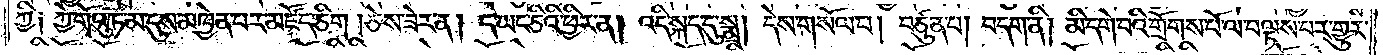ཀྱི༑ ཀྱེ་གོའུ་ཏ་མ་དུས་མཁྱེན་པར་མཛོད་ཅིག །ཅེས་ཟེར་ན། ད་ཡང་ཅིའི་ཕྱིར་ན། འདི་སྐད་དུ་སྨྲ། དེས་གསོལ་པ། བཙུན་པ། བདག་ནི། མི་དགེ་བའི་གྲོགས་པོ་ལ་བལྟས་པར་གྱུར་
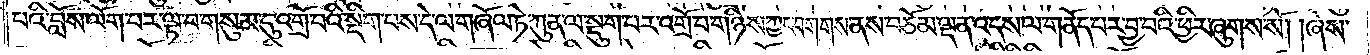པའི་བློས་ལོག་པར་ལྟ་བ་གསུམ་དུ་འགྲོ་བའི་སྡིག་པས་དེ་ལ་གཞོལ་ཏེ་ཀུན་ལ་སྡུག་པར་འགྲོ་བ་གཉིས་ཀྱང་བགགས་ནས་བཅོམ་ལྡན་འདས་ལ་གནོད་པར་བྱ་བའི་ཕྱིར་ཞུགས་སོ། །ཞེས་
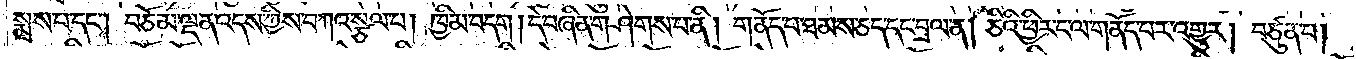སྨྲས་པ་དང༌། བཅོམ་ལྡན་འདས་ཀྱིས་བཀའ་སྩལ་པ། ཁྱིམ་བདག། དེ་བཞིན་གཤེགས་པ་ནི། གནོད་པ་ཐམས་ཅད་དང་བྲལ་ན། ཅིའི་ཕྱིར་ང་ལ་གནོད་པར་འགྱུར། བཙུན་པ།
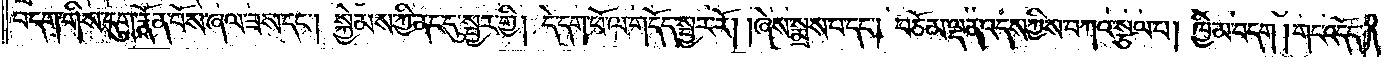བདག་གིས་དུག་རྣོན་པོས་ཞལ་ཟས་དང༌། སྐྱེམས་ཀྱི་ནང་དུ་སྦྱར་གྱི། དེ་དག་ཕོ་ལ་གདོད་སྦྱར་རོ། །ཞེས་སྨྲས་པ་དང༌། བཅོམ་ལྡན་འདས་ཀྱིས་བཀའ་སྩལ་པ། ཁྱིམ་བདག །གང་འདོད་
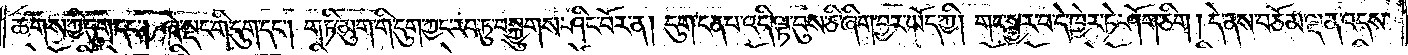ཆགས་ཀྱི་དུག་དང༌། ཞེ་སྡང་གི་དུག་དང༌། གཏི་མུག་གི་དུག་ཀྱང་རབ་ཏུ་བསྐྱུགས་ཤིང་བོར་ན། དུག་ངན་པ་འདི་ལྟ་བུས་ཅི་ཞིག་བྱར་ཡོད་ཀྱི། གང་སྦྱར་བ་དེ་ཁྱེར་ཏེ་ཤོག་ཅིག །དེ་ནས་བཅོམ་ལྡན་འདས་
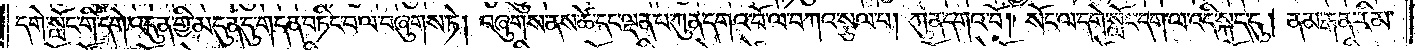དགེ་སློང་གི་དགེ་འདུན་གྱི་མདུན་དུ་གདན་བཏིང་བ་ལ་བཞུགས་ཏེ། བཞུགས་ནས་ཚེ་དང་ལྡན་པ་ཀུན་དགའ་བོ་ལ་བཀའ་སྩལ་པ། ཀུན་དགའ་བོ། སོང་ལ་དགེ་སློང་དག་ལ་འདི་སྐད་དུ། ནམ་རྒན་རིམ་
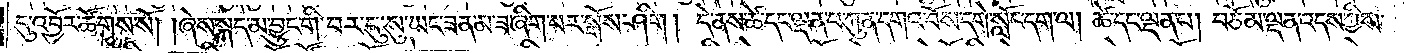དུ་འབྱོར་ཚོགས་སོ། །ཞེས་སྐད་མ་བྱུང་གི་བར་དུ་སུ་ཡང་ཟན་མ་ཟ་ཞིག་པར་སྒོས་ཤིག །དེ་ནས་ཚེ་དང་ལྡན་པ་ཀུན་དགའ་བོས་དགེ་སློང་དག་ལ། ཚེ་དང་ལྡན་པ། བཅོམ་ལྡན་འདས་ཀྱིས་
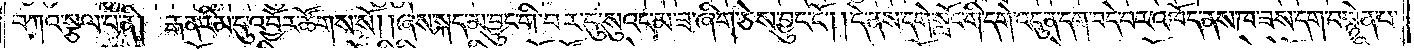བཀའ་སྩལ་པ་ནི། རྒན་རིམ་དུ་འབྱོར་ཚོགས་སོ། །ཞེས་སྐད་མ་བྱུང་གི་བར་དུ་སུའང་མ་ཟ་ཞིག་ཅེས་བྱུང་ངོ༌། །དེ་ནས་དགེ་སློང་གི་དགེ་འདུན་དག་བདེ་བར་འཁོད་ནས་ཁ་ཟས་དག་བསྙེན་པ་
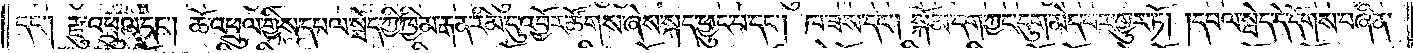དང༌། རྫུ་འཕྲུལ་དང༌། ཆོ་འཕྲུལ་གྱིས་དཔལ་སྦེད་ཀྱི་ཁྱིམ་རྒན་རིམ་དུ་འབྱོར་ཚོགས་ཞེས་སྐད་ཕྱུང་པ་དང༌། ཁ་ཟས་དང༌། སྐོམ་དག་ཀྱང་དུག་མེད་པར་གྱུར་ཏོ། །དཔལ་སྦེད་དེ་དོགས་བཞིན་
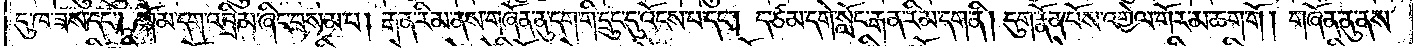དུ་ཁ་ཟས་དང༌། སྐོམ་དག་འབྲིམ་ཞིང་བསམ་པ། རྒན་རིམ་ནས་གཞོན་ནུ་དག་གི་དྲུང་དུ་འོངས་པ་དང༌། ད་ཙམ་དགེ་སློང་རྒན་རིམ་དག་ནི། དུག་རྣོན་པོས་འགྱེལ་གོར་མ་ཆག་གོ། གཞོན་ནུ་ནས་
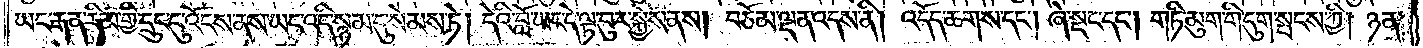ཡང་རྒན་རིམ་གྱི་དྲུང་དུ་འོངས་ནས་ཡང་འདི་སྙམ་དུ་སེམས་ཏེ། དེའི་བློ་ཡང་དེ་ལྟ་བུར་སྐྱེས་ནས། བཅོམ་ལྡན་འདས་ནི། འདོད་ཆགས་དང༌། ཞེ་སྡང་དང༌། གཏི་མུག་གི་དུག་སྤངས་ཀྱི། ཉན་
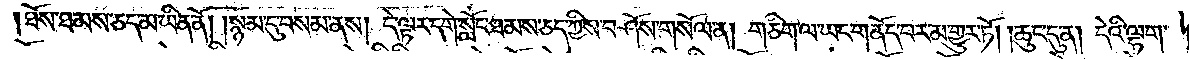ཐོས་ཐམས་ཅད་མ་ཡིན་ནོ། །སྙམ་དུ་བསམ་ནས། དེ་ལྟར་དགེ་སློང་ཐམས་ཅད་ཀྱིས་བཤོས་གསོལ་ན། གཅིག་ལ་ཡང་གནོད་པར་མ་གྱུར་ཏོ། །ཆུང་དུ་ན། དེའི་ལྷག་
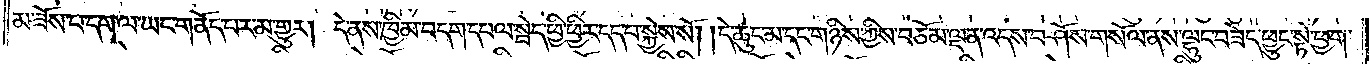མ་ཟོས་པ་དག་ལ་ཡང་གནོད་པར་མ་གྱུར། དེ་ནས་ཁྱིམ་བདག་དཔལ་སྦེད་ཕྱི་ཕྱིར་དད་པ་སྐྱེས་སོ། །དེ་ཆུང་མ་དང་གཉིས་ཀྱིས་བཅོམ་ལྡན་འདས་བཤོས་གསོལ་ནས་ལྷུང་བཟེད་ཕྱུང་སྟེ་ཕྱག་
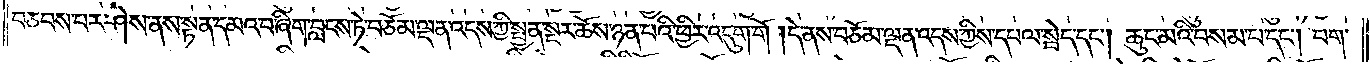བཅབས་པར་ཤེས་ནས་སྟན་དམའ་བ་ཞིག་བླངས་ཏེ་བཅོམ་ལྡན་འདས་ཀྱི་སྤྱན་སྔར་ཆོས་ཉན་པའི་ཕྱིར་འདུག་གོ། དེ་ནས་བཅོམ་ལྡན་འདས་ཀྱིས་དཔལ་སྦེད་དང༌། ཆུང་མའི་བསམ་པ་དང༌། བག་
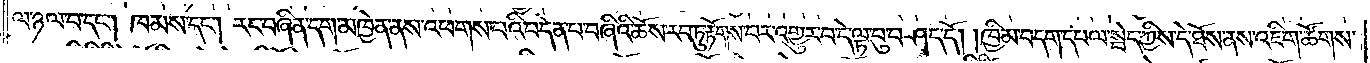ལ་ཉལ་བ་དང༌། ཁམས་དང༌། རང་བཞིན་དག་མཁྱེན་ནས་འཕགས་པའི་བདེན་པ་བཞིའི་ཆོས་རབ་ཏུ་རྟོགས་པར་འགྱུར་བ་དེ་ལྟ་བུ་བཤད་དོ། །ཁྱིམ་བདག་དཔལ་སྦེད་ཀྱིས་དེ་ཐོས་ནས་འཇིག་ཚོགས་
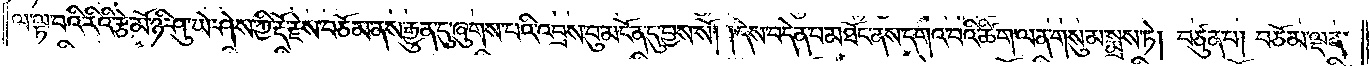ལ་ལྟ་བའི་རིའི་རྩེ་མོ་ཉི་ཤུ་ཡེ་ཤེས་ཀྱི་རྡོ་རྗེས་བཅོམ་ནས་རྒྱུན་དུ་ཞུགས་པའི་འབྲས་བུ་མངོན་དུ་བྱས་སོ། །དེས་བདེན་པ་མཐོང་ནས་དགའ་བའི་ཚིག་ལན་གསུམ་སྨྲས་ཏེ། བཙུན་པ། བཅོམ་ལྡན་
